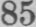85
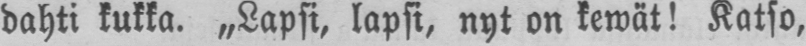dahti kukka. „Lapsi, lapsi, nyt on kewät! Katso,
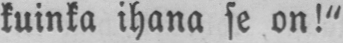kuinka ihana se on!"
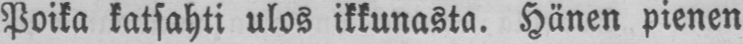Poika katsahti ulos ikkunasta. Hänen pienen
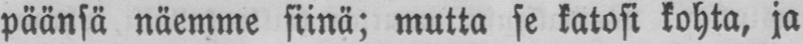päänsä näemme siinä; mutta se katosi kohta, ja
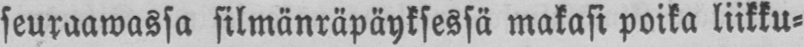seuraawassa silmänräpäyksessä makasi poika liikku-
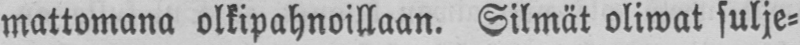mattomana olkipahnoillaan. Silmät oliwat sulje-
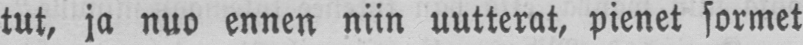tut, ja nuo ennen niin uutterat, pienet sormet
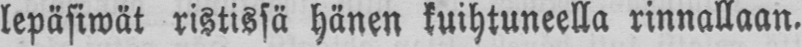lepäsiwät ristissä hänen kuihtuneella rinnallaan.
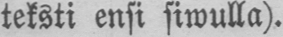teksti ensi siwulla).
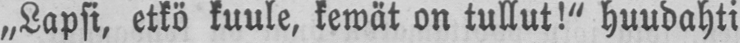„Lapsi, etkö kuule, kewät on tullut!" huudahti
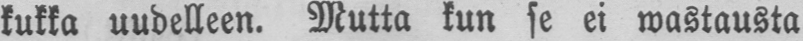kukka uudelleen. Mutta kun se ei wastausta
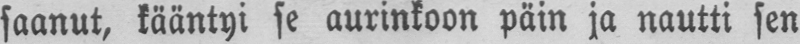saanut, kääntyi se aurinkoon päin ja nautti sen
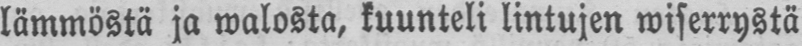lämmöstä ja walosta, kuunteli lintujen wiserrystä
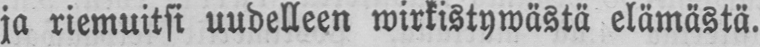ja riemuitsi uudelleen wirkistywästä elämästä.
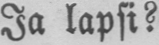Ja lapsi?
